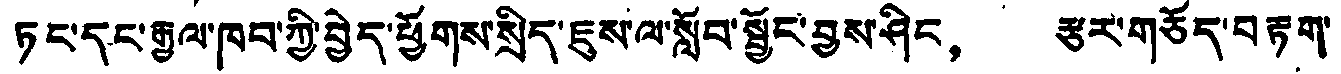ཏང་དང་རྒྱལ་ཁབ་ཀྱི་བྱེད་ཕྱོགས་སྲིད་ཇུས་ལ་སློབ་སྦྱོང་བྱས་ཤིང， རྩར་གཅོད་བརྟག་
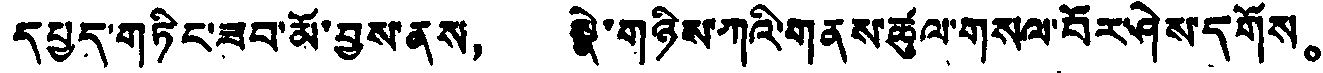དཔྱད་གཏིང་ཟབ་མོ་བྱས་ནས， སྣེ་གཉིས་ཀའི་གནས་ཚུལ་གསལ་བོར་ཤེས་དགོས。
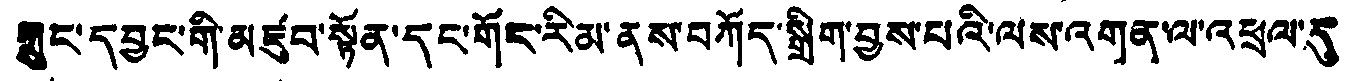ཀྲུང་དབྱང་གི་མཛུབ་སྟོན་དང་གོང་རིམ་ནས་བཀོད་སྒྲིག་བྱས་པའི་ལས་འགན་ལ་འཕྲལ་དུ
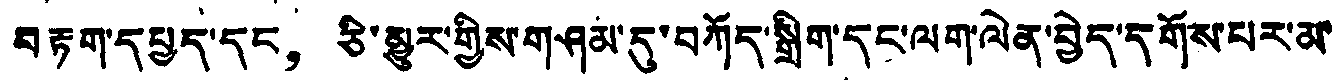བརྟག་དཔྱད་དང， ཅི་མྱུར་གྱིས་གཤམ་དུ་བཀོད་སྒྲིག་དང་ལག་ལེན་བྱེད་དགོས་པར་མ་
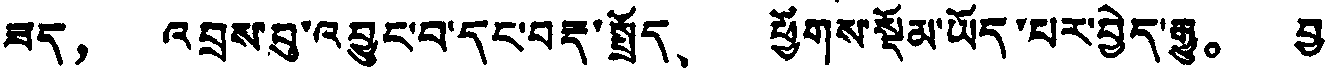ཟད， འབྲས་བུ་འབྱུང་བ་དང་བརྡ་སྤྲོད、 ཕྱོགས་སྡོམ་ཡོད་པར་བྱེད་རྒྱུ。 བྱ
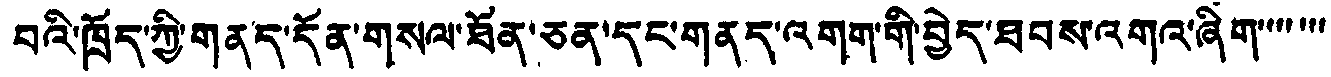བའི་ཁྲོད་ཀྱི་གནད་དོན་གསལ་ཐོན་ཅན་དང་གནད་འགག་གི་བྱེད་ཐབས་འགའ་ཞིག་་་་་་
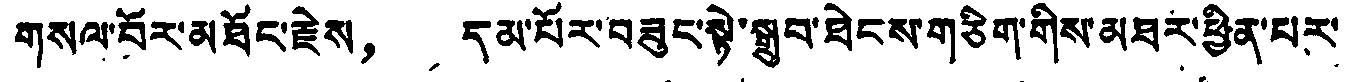གསལ་བོར་མཐོང་རྗེས， དམ་པོར་བཟུང་སྟེ་སྒྲུབ་ཐེངས་གཅིག་གིས་མཐར་ཕྱིན་པར་
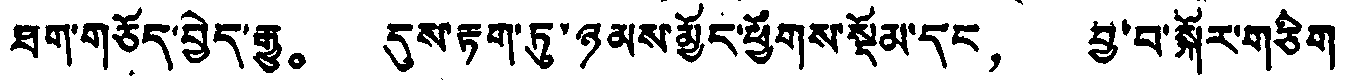ཐག་གཅོད་བྱེད་རྒྱུ。 དུས་རྟག་ཏུ་ཉམས་མྱོང་ཕྱོགས་སྡོམ་དང， བྱ་བ་སྐོར་གཅིག
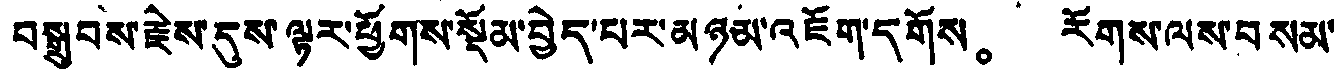བསྒྲུབས་རྗེས་དུས་ལྟར་ཕྱོགས་སྡོམ་བྱེད་པར་མཉམ་འཇོག་དགོས。 རོགས་ལས་བསམ་
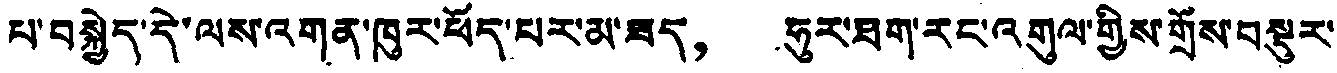པ་བསྐྱེད་དེ་ལས་འགན་ཁུར་ཕོད་པར་མ་ཟད， ཧུར་ཐག་རང་འགུལ་གྱིས་གྲོས་བསྡུར་
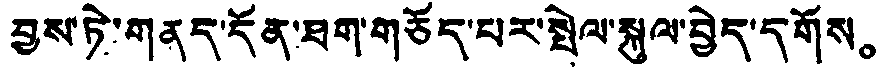བྱས་ཏེ་གནད་དོན་ཐག་གཅོད་པར་སྤེལ་སྐུལ་བྱེད་དགོས。
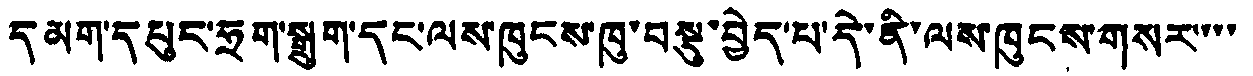དམག་དཔུང་ཧྲག་སྒྲུག་དང་ལས་ཁུངས་ཁུ་བསྡུ་བྱེད་པ་དེ་ནི་ལས་ཁུངས་གསར་་་་
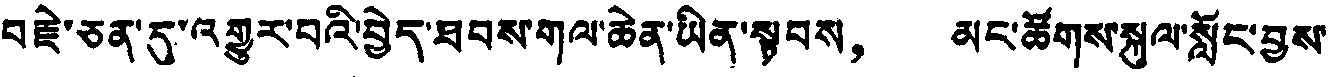བརྗེ་ཅན་དུ་འགྱུར་བའི་བྱེད་ཐབས་གལ་ཆེན་ཡིན་སྟབས， མང་ཚོགས་སྐུལ་སློང་བྱས་
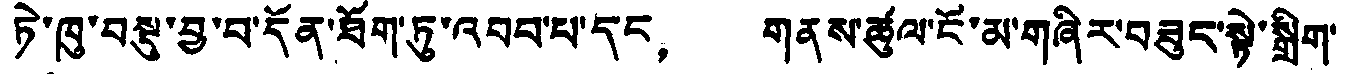ཏེ་ཁུ་བསྡུ་བྱ་བ་དོན་ཐོག་ཏུ་འབབ་པ་དང， གནས་ཚུལ་ངོ་མ་གཞིར་བཟུང་སྟེ་སྒྲིག་
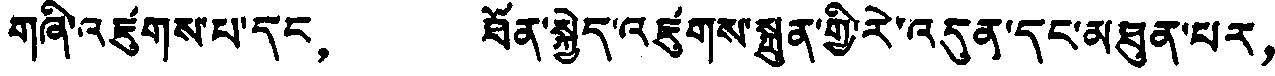གཞི་འཛུགས་པ་དང， ཐོན་སྐྱེད་འཛུགས་སྐྲུན་གྱི་རེ་འདུན་དང་མཐུན་པར，
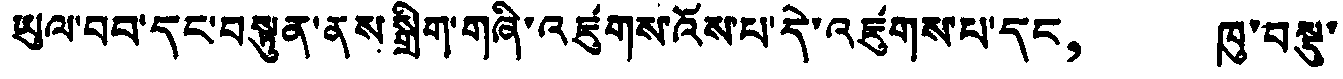ཡུལ་བབ་དང་བསྟུན་ནས་སྒྲིག་གཞི་འཛུགས་འོས་པ་དེ་འཛུགས་པ་དང， ཁུ་བསྡུ་
